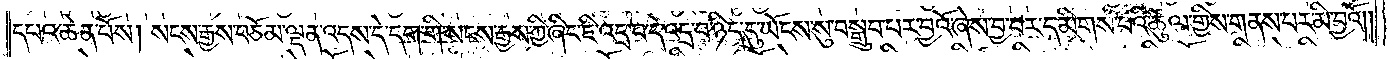དཔའ་ཆེན་པོས། སངས་རྒྱས་བཅོམ་ལྡན་འདས་དེ་དག་གི་སངས་རྒྱས་ཀྱི་ཞིང་ཇི་འདྲ་བ་དེ་འདྲ་བ་ཉིད་དུ་ཡོངས་སུ་བསྒྲུབ་པར་བྱའོ་ཞེས་བྱ་བར་དམིགས་པའི་ཚུལ་གྱིས་གནས་པར་མི་བྱའོ། །
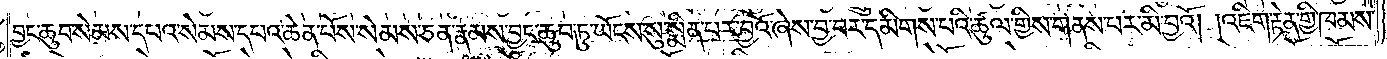བྱང་ཆུབ་སེམས་དཔའ་སེམས་དཔའ་ཆེན་པོས་སེམས་ཅན་རྣམས་བྱང་ཆུབ་ཏུ་ཡོངས་སུ་སྨིན་པར་བྱའོ་ཞེས་བྱ་བར་དམིགས་པའི་ཚུལ་གྱིས་གནས་པར་མི་བྱའོ། །འཇིག་རྟེན་གྱི་ཁམས་
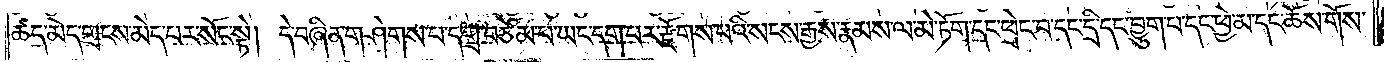ཚད་མེད་གྲངས་མེད་པར་སོང་སྟེ། དེ་བཞིན་གཤེགས་པ་དགྲ་བཅོམ་པ་ཡང་དག་པར་རྫོགས་པའི་སངས་རྒྱས་རྣམས་ལ་མེ་ཏོག་དང༌། ཕྲེང་བ་དང་དྲི་དང་བྱུག་པ་དང་ཕྱེ་མ་དང་ཆོས་གོས་
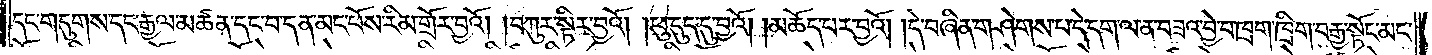དང་གདུགས་དང་རྒྱལ་མཚན་དང་བ་དན་མང་པོས་རིམ་གྲོར་བྱའོ། །བཀུར་སྟིར་བྱའོ། །ཕུ་དུད་དུ་བྱའོ། །མཆོད་པར་བྱའོ། །དེ་བཞིན་གཤེགས་པ་དེ་དག་ལ་ན་བཟའ་བྱེ་བ་ཁྲག་ཁྲིག་བརྒྱ་སྟོང་མང་
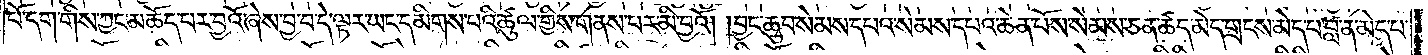པོ་དག་གིས་ཀྱང་མཆོད་པར་བྱའོ་ཞེས་བྱ་བ་དེ་ལྟར་ཡང་དམིགས་པའི་ཚུལ་གྱིས་གནས་པར་མི་བྱའོ། །བྱང་ཆུབ་སེམས་དཔའ་སེམས་དཔའ་ཆེན་པོས་སེམས་ཅན་ཚད་མེད་གྲངས་མེད་པ་བླ་ན་མེད་པ་
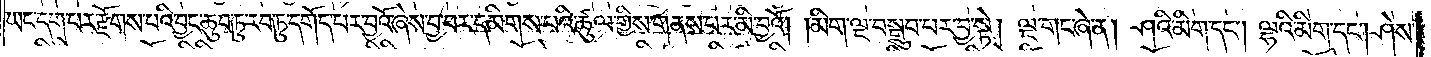ཡང་དག་པར་རྫོགས་པའི་བྱང་ཆུབ་ཏུ་རབ་ཏུ་དགོང་པར་བྱའོ་ཞེས་བྱ་བར་དམིགས་པའི་ཚུལ་གྱིས་གནས་པར་མི་བྱའོ། །མིག་ལྔ་བསྒྲུབ་པར་བྱ་སྟེ། ལྔ་གང་ཞེ་ན། ཤའི་མིག་དང༌། ལྷའི་མིག་དང༌། ཤེས་
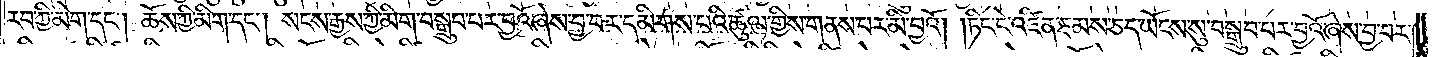རབ་ཀྱི་མིག་དང༌། ཆོས་ཀྱི་མིག་དང༌། སངས་རྒྱས་ཀྱི་མིག་བསྒྲུབ་པར་བྱའོ་ཞེས་བྱ་བར་དམིགས་པའི་ཚུལ་གྱིས་གནས་པར་མི་བྱའོ། །ཏིང་ངེ་འཛིན་ཐམས་ཅད་ཡོངས་སུ་བསྒྲུབ་པར་བྱའོ་ཞེས་བྱ་བར་
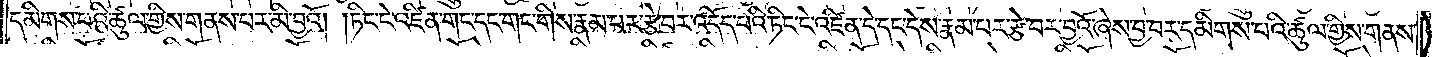དམིགས་པའི་ཚུལ་གྱིས་གནས་བར་མི་བྱའོ། །ཏིང་ངེ་འཛིན་གང་དང་གང་གིས་རྣམ་པར་རྩེ་བར་འདོད་པའི་ཏིང་ངེ་འཛིན་དེ་དང་དེས་རྣམ་པར་རྩེ་བར་བྱའོ་ཞེས་བྱ་བར་དམིགས་པའི་ཚུལ་གྱིས་གནས་
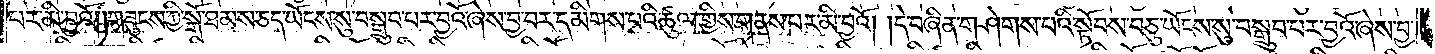པར་མི་བྱའོ། །གཟུངས་ཀྱི་སྒོ་ཐམས་ཅད་ཡོངས་སུ་བསྒྲུབ་པར་བྱའོ་ཞེས་བྱ་བར་དམིགས་པའི་ཚུལ་གྱིས་གནས་པར་མི་བྱའོ། །དེ་བཞིན་གཤེགས་པའི་སྟོབས་བཅུ་ཡོངས་སུ་བསྒྲུབ་པར་བྱའོ་ཞེས་བྱ་
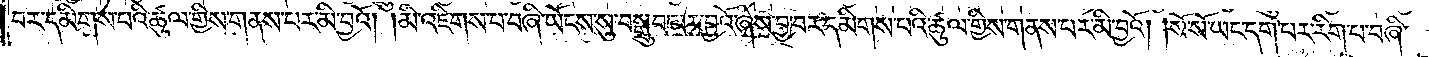བར་དམིགས་པའི་ཚུལ་གྱིས་གནས་པར་མི་བྱའོ། །མི་འཇིགས་པ་བཞི་ཡོངས་སུ་བསྒྲུབ་པར་བྱའོ་ཞེས་བྱ་བར་དམིགས་པའི་ཚུལ་གྱིས་གནས་པར་མི་བྱའོ། །སོ་སོ་ཡང་དག་པར་རིག་པ་བཞི་
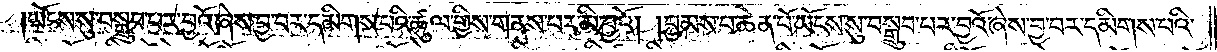ཡོངས་སུ་བསྒྲུབ་པར་བྱའོ་ཞེས་བྱ་བར་དམིགས་པའི་ཚུལ་གྱིས་གནས་པར་མི་བྱའོ། །བྱམས་པ་ཆེན་པོ་ཡོངས་སུ་བསྒྲུབ་པར་བྱའོ་ཞེས་བྱ་བར་དམིགས་པའི་
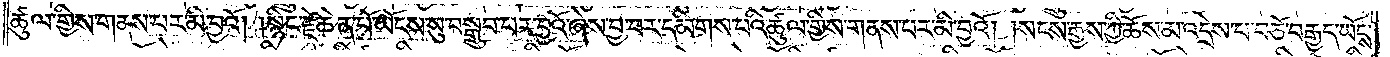ཚུལ་གྱིས་གནས་པར་མི་བྱའོ། །སྙིང་རྗེ་ཆེན་པོ་ཡོངས་སུ་བསྒྲུབ་པར་བྱའོ་ཞེས་བྱ་བར་དམིགས་པའི་ཚུལ་གྱིས་གནས་པར་མི་བྱའོ། །སངས་རྒྱས་ཀྱི་ཆོས་མ་འདྲེས་པ་བཅོ་བརྒྱད་ཡོངས་
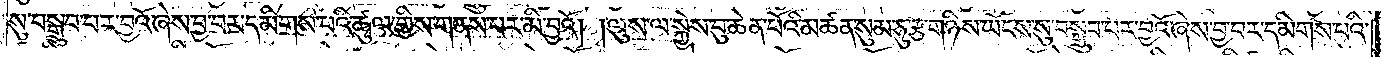སུ་བསྒྲུབ་པར་བྱའོ་ཞེས་བྱ་བར་དམིགས་པའི་ཚུལ་གྱིས་གནས་པར་མི་བྱའོ། །ལུས་ལ་སྐྱེས་བུ་ཆེན་པོའི་མཚན་སུམ་ཅུ་རྩ་གཉིས་ཡོངས་སུ་བསྒྲུབ་པར་བྱའོ་ཞེས་བྱ་བར་དམིགས་པའི་
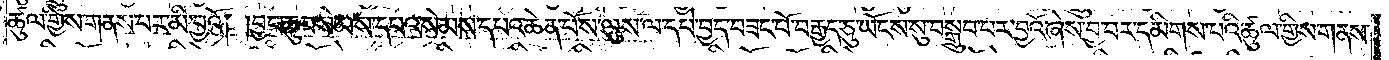ཚུལ་གྱིས་གནས་པར་མི་བྱའོ། །བྱང་ཆུབ་སེམས་དཔའ་སེམས་དཔའ་ཆེན་པོས་ལུས་ལ་དཔེ་བྱད་བཟང་པོ་བརྒྱད་ཅུ་ཡོངས་སུ་བསྒྲུབ་པར་བྱའོ་ཞེས་བྱ་བར་དམིགས་པའི་ཚུལ་གྱིས་གནས་
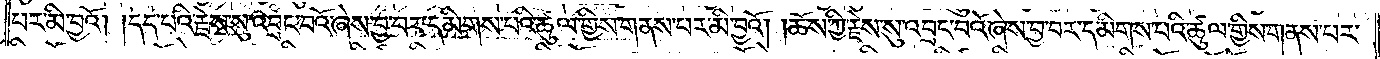པར་མི་བྱའོ། །དད་པའི་རྗེས་སུ་འབྲང་བའོ་ཞེས་བྱ་བར་དམིགས་པའི་ཚུལ་གྱིས་གནས་པར་མི་བྱའོ། །ཆོས་ཀྱི་རྗེས་སུ་འབྲང་བའོ་ཞེས་བྱ་བར་དམིགས་པའི་ཚུལ་གྱིས་གནས་པར་
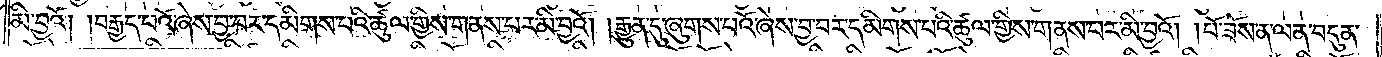མི་བྱའོ། །བརྒྱད་པའོ་ཞེས་བྱ་བར་དམིགས་པའི་ཚུལ་གྱིས་གནས་པར་མི་བྱའོ། །རྒྱུན་དུ་ཞུགས་པའོ་ཞེས་བྱ་བར་དམིགས་པའི་ཚུལ་གྱིས་གནས་པར་མི་བྱའོ། །པོ་ཟོས་ན་ལན་བདུན་
